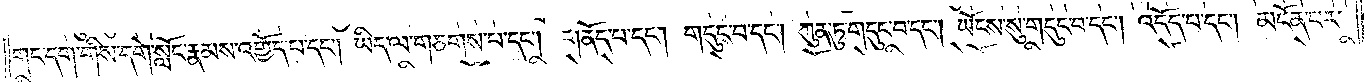གང་དག་གིས་དགེ་སློང་རྣམས་འགྱོད་པ་དང༌། ཡིད་ལ་གཅགས་པ་དང༌། གནོད་པ་དང༌། གདུང་བ་དང༌། ཀུན་ཏུ་གདུང་བ་དང༌། ཡོངས་སུ་གདུང་བ་དང༌། འདོད་པ་དང༌། མངོན་པར་
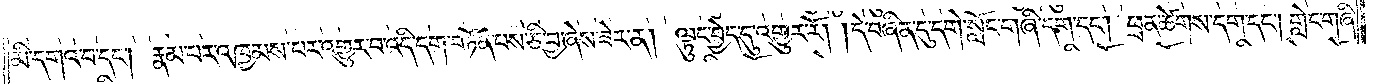མི་དགའ་བ་དང༌། རྣམ་པར་འཁྱམས་པར་འགྱུར་བ་འདི་དག་བཏོན་པས་ཅི་བྱ་ཞེས་ཟེར་ན། ལྟུང་བྱེད་དུ་འགྱུར་རོ། །དེ་བཞིན་དུ་དགེ་སློང་གཞི་དག་དང༌། ཕྲན་ཚེགས་དག་དང༌། གླེང་གཞི་
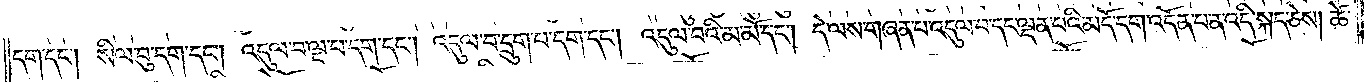དག་དང༌། སིལ་བུ་དག་དང༌། འདུལ་བ་ལྔ་པ་དག་དང༌། འདུལ་བ་དྲུག་པ་དག་དང༌། འདུལ་བའི་མ་མོ་དང༌། དེ་ལས་གཞན་པ་འདུལ་བ་དང་ལྡན་པའི་མདོ་དག་འདོན་པ་ན་འདི་སྐད་ཅེས། ཚེ་
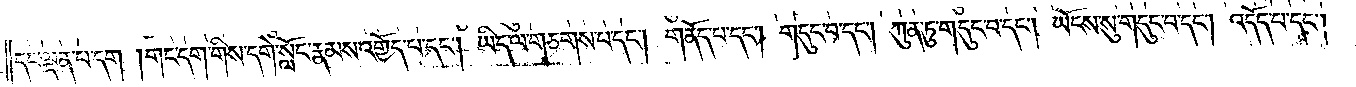དང་ལྡན་པ་དག །གང་དག་གིས་དགེ་སློང་རྣམས་འགྱོད་པ་དང༌། ཡིད་ལ་གཅགས་པ་དང༌། གནོད་པ་དང༌། གདུང་བ་དང༌། ཀུན་ཏུ་གདུང་བ་དང༌། ཡོངས་སུ་གདུང་བ་དང༌། འདོད་པ་དང༌།
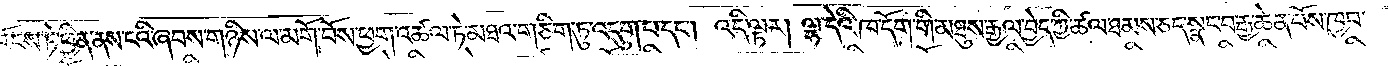འོངས་ཏེ་ཕྱིན་ནས་ངའི་ཞབས་གཉིས་ལ་མགོ་བོས་ཕྱག་འཚལ་ཏེ་མཐའ་གཅིག་ཏུ་འདུག་པ་དང༌། འདི་ལྟར། ལྷ་དེའི་ཁ་དོག་གི་མཐུས་རྒྱལ་བྱེད་ཀྱི་ཚལ་ཐམས་ཅད་སྣང་བརྒྱ་ཆེན་པོས་ཁྱབ་
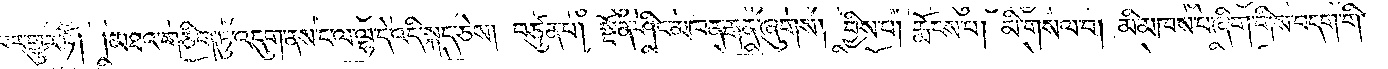པར་གྱུར་ཏོ། །མཐའ་གཅིག་ཏུ་འདུག་ནས་ང་ལ་ལྷ་དེ་འདི་སྐད་ཅེས། བཙུན་པ། སྔོན་ཤིང་མཁན་རྒན་ཞུགས། བྱིས་པ། རྨོངས་པ། མི་གསལ་བ། མི་མཁས་པ་ཞིག་གིས་བདག་གི་
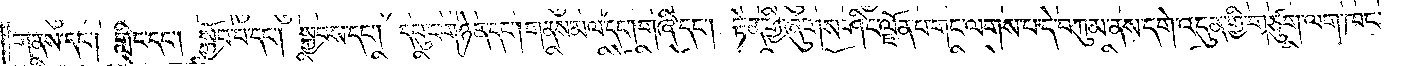གནས་དང༌། གླིང་དང༌། སྐྱོབ་པ་དང༌། སྐྱབས་དང༌། དཔུང་གཉེན་དང༌། གནས་མལ་དང༌། གཞི་དང༌། རྟེན་གྱི་ཞུགས་ཤིང་ལྗོན་པ་གང་ལགས་པ་དེ་བཀུམ་ནས་དགེ་འདུན་གྱི་གཙུག་ལག་ཁང་
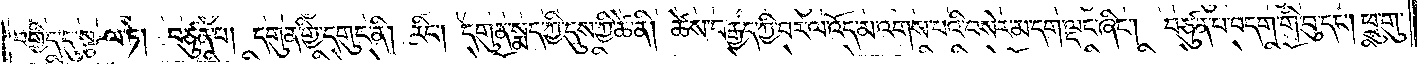བགྱིད་དུ་སྩལ་ཏེ། བཙུན་པ། དགུན་གྱི་དགུང་ནི། རིང༌། དགུན་སྨད་ཀྱི་དུས་ཀྱི་ཚེ་ནི། ཚེས་བརྒྱད་ཀྱི་བར་ལ་འོད་མ་འགས་པའི་བསེར་མ་དག་ལྡང་ཞིང༌། བཙུན་པ་བདག་གི་བུ་དང༌། ཕྲུ་གུ་
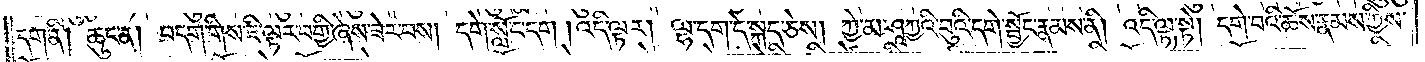དག་ནི། ཆུང་ན། བདག་གིས་ཇི་ལྟར་བགྱི་ཞེས་ཟེར་བས། དགེ་སློང་དག། འདི་ལྟར། ལྷ་དག་དེ་སྐད་ཅེས། ཀྱེ་མ་ཤཱཀྱའི་བུའི་དགེ་སྦྱོང་རྣམས་ནི། འདི་ལྟ་སྟེ། དགེ་བའི་ཆོས་རྣམས་ཀྱིས་
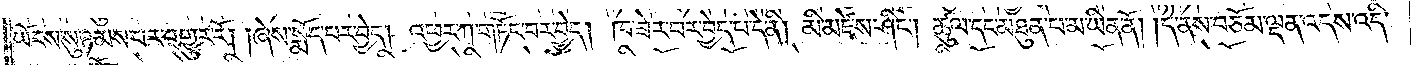ཡོངས་སུ་ཉམས་པར་འགྱུར་རོ། །ཞེས་སྨོད་པར་བྱེད། འཕྱར་ཀ་གཏོང་བར་བྱེད། ཁ་ཟེར་བར་བྱེད་པ་དེ་ནི། མི་མཛེས་ཤིང༌། ཚུལ་དང་མཐུན་པ་མ་ཡིན་ནོ། །དེ་ནས་བཅོམ་ལྡན་འདས་འདི་
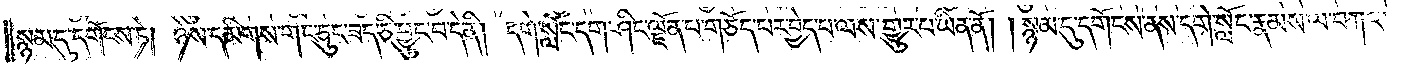སྙམ་དུ་དགོངས་ཏེ། ཉེས་དམིགས་གང་ཅུང་ཟད་ཅི་བྱུང་བ་དེ་ནི། དགེ་སློང་དག་ཤིང་ལྗོན་པ་གཅོད་པར་བྱེད་པ་ལས་གྱུར་བ་ཡིན་ནོ། །སྙམ་དུ་དགོངས་ནས་དགེ་སློང་རྣམས་ལ་བཀའ་
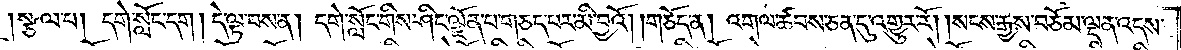སྩལ་པ། དགེ་སློང་དག། དེ་ལྟ་བས་ན། དགེ་སློང་གིས་ཤིང་ལྗོན་པ་གཅད་པར་མི་བྱའོ། །གཅོད་ན། འགལ་ཚབས་ཅན་དུ་འགྱུར་རོ། །སངས་རྒྱས་བཅོམ་ལྡན་འདས་
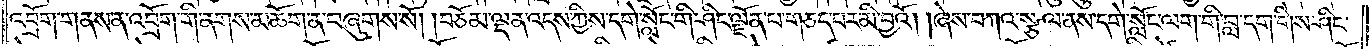འབྲོག་གནས་ན་འབྲོག་གི་ནགས་མཆོག་ན་བཞུགས་སོ། །བཅོམ་ལྡན་འདས་ཀྱིས་དགེ་སློང་གི་ཤིང་ལྗོན་པ་གཅད་པར་མི་བྱའོ། །ཞེས་བཀའ་སྩལ་ནས་དགེ་སློང་ལག་གི་བླ་དག་གིས་ཤིང་
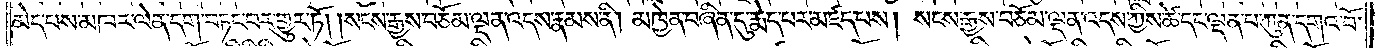མེད་པས་མཁར་ལེན་དག་བཏང་བར་གྱུར་ཏོ། །སངས་རྒྱས་བཅོམ་ལྡན་འདས་རྣམས་ནི། མཁྱེན་བཞིན་དུ་རྨེད་པར་མཛད་པས། སངས་རྒྱས་བཅོམ་ལྡན་འདས་ཀྱིས་ཚེ་དང་ལྡན་པ་ཀུན་དགའ་བོ་
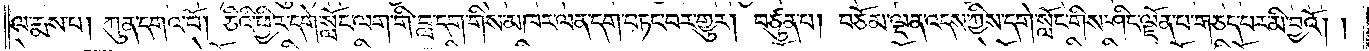ལ་རྨས་པ། ཀུན་དགའ་བོ། ཅིའི་ཕྱིར་དགེ་སློང་ལག་གི་བླ་དག་གིས་མཁར་ལན་དག་བཏང་བར་གྱུར། བཙུན་པ། བཅོམ་ལྡན་འདས་ཀྱིས་དགེ་སློང་གིས་ཤིང་ལྗོན་པ་གཅད་པར་མི་བྱའོ། །
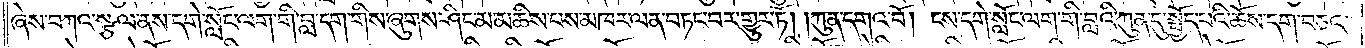ཞེས་བཀའ་སྩལ་ནས་དགེ་སློང་ལག་གི་བླ་དག་གིས་ཞུགས་ཤིང་མ་མཆིས་པས་མཁར་ལན་བཏང་བར་གྱུར་ཏོ། །ཀུན་དགའ་བོ། ངས་དགེ་སློང་ལག་གི་བླའི་ཀུན་དུ་སྤྱོད་པའི་ཆོས་དག་བཅའ་
